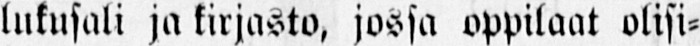lukusali ja kirjasto, jossa oppilaat olisi-
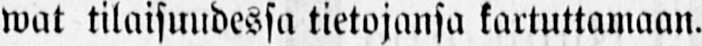wat tilaisuudessa tietojansa kartuttamaan.
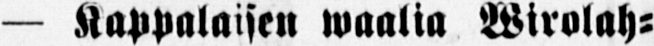— Kappalaisen waalia Wirolah-
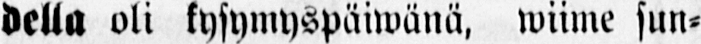della oli kysymyspäiwänä, wiime sun-
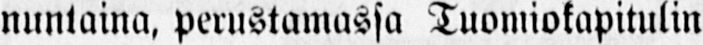nuntaina, perustamassa Tuomiokapitulin
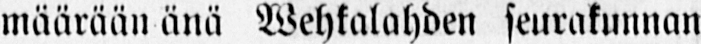määrään änä Wehkalahden seurakunnan
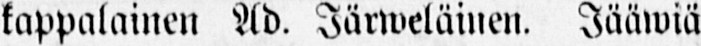kappalainen Ad. Järweläinen. Jääwiä
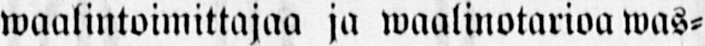waalintoimittajaa ja waalinotarioa was-
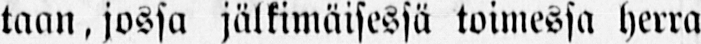taan, jossa jälkimäisessä toimessa herra
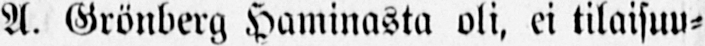A. Grönberg Haminasta oli, ei tilaisuu-
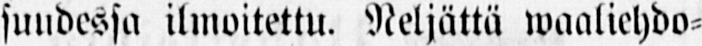suudessa ilmoitettu. Neljättä waaliehdo-
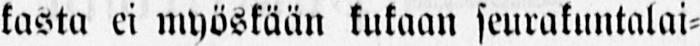kasta ei myöskään kukaan seurakuntalai-
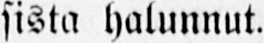sista halunnut.
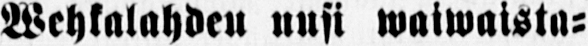Wehkalahden uusi waiwaista-
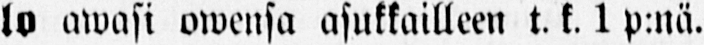lo awasi owensa asukkailleen t. k. 1 p:nä.
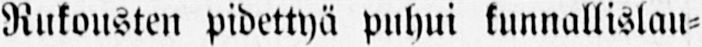Rukousten pidettyä puhui kunnallislau-
